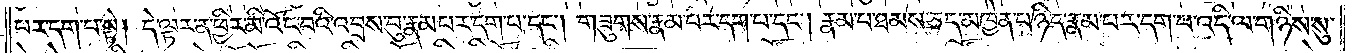པར་དག་པ་སྟེ། དེ་ལྟར་ན་ཕྱིར་མི་འོང་བའི་འབྲས་བུ་རྣམ་པར་དག་པ་དང༌། གཟུགས་རྣམ་པར་དག་པ་དང༌། རྣམ་པ་ཐམས་ཅད་མཁྱེན་པ་ཉིད་རྣམ་པར་དག་པ་འདི་ལ་གཉིས་སུ་
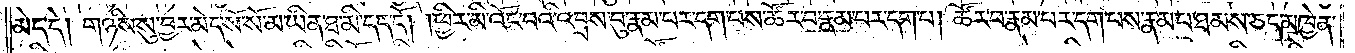མེད་དེ། གཉིས་སུ་བྱར་མེད་སོ་སོ་མ་ཡིན་ཐ་མི་དད་དོ། །ཕྱིར་མི་འོང་བའི་འབྲས་བུ་རྣམ་པར་དག་པས་ཚོར་བ་རྣམ་པར་དག་པ། ཚོར་བ་རྣམ་པར་དག་པས་རྣམ་པ་ཐམས་ཅད་མཁྱེན་
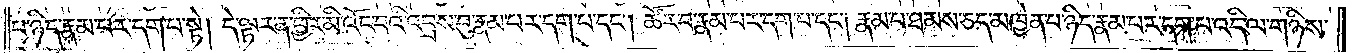པ་ཉིད་རྣམ་པར་དག་པ་སྟེ། དེ་ལྟར་ན་ཕྱིར་མི་འོང་བའི་འབྲས་བུ་རྣམ་པར་དག་པ་དང༌། ཚོར་བ་རྣམ་པར་དག་པ་དང༌། རྣམ་པ་ཐམས་ཅད་མཁྱེན་པ་ཉིད་རྣམ་པར་དག་པ་འདི་ལ་གཉིས་
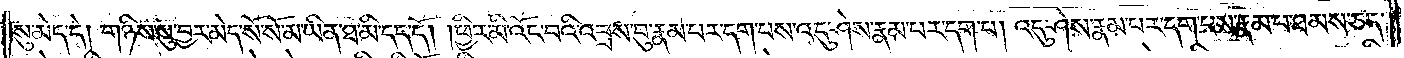སུ་མེད་དེ། གཉིས་སུ་བྱར་མེད་སོ་སོ་མ་ཡིན་ཐ་མི་དད་དོ། །ཕྱིར་མི་འོང་བའི་འབྲས་བུ་རྣམ་པར་དག་པས་འདུ་ཤེས་རྣམ་པར་དག་པ། འདུ་ཤེས་རྣམ་པར་དག་པས་རྣམ་པ་ཐམས་ཅད་
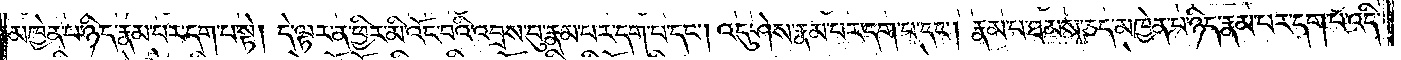མཁྱེན་པ་ཉིད་རྣམ་པར་དག་པ་སྟེ། དེ་ལྟར་ན་ཕྱིར་མི་འོང་བའི་འབྲས་བུ་རྣམ་པར་དག་པ་དང༌། འདུ་ཤེས་རྣམ་པར་དག་པ་དང༌། རྣམ་པ་ཐམས་ཅད་མཁྱེན་པ་ཉིད་རྣམ་པར་དག་པ་འདི་
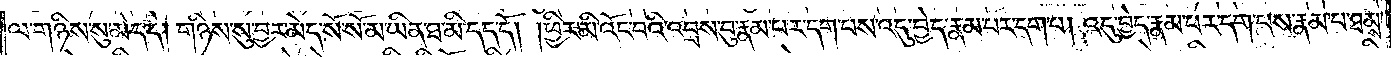ལ་གཉིས་སུ་མེད་དེ། གཉིས་སུ་བྱར་མེད་སོ་སོ་མ་ཡིན་ཐ་མི་དད་དོ། །ཕྱིར་མི་འོང་བའི་འབྲས་བུ་རྣམ་པར་དག་པས་འདུ་བྱེད་རྣམ་པར་དག་པ། འདུ་བྱེད་རྣམ་པར་དག་པས་རྣམ་པ་ཐམས་
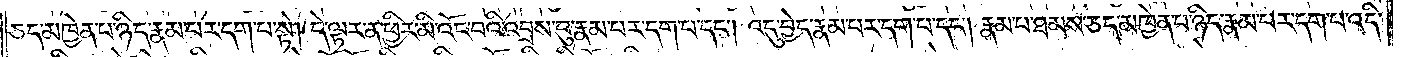ཅད་མཁྱེན་པ་ཉིད་རྣམ་པར་དག་པ་སྟེ། དེ་ལྟར་ན་ཕྱིར་མི་འོང་བའི་འབྲས་བུ་རྣམ་པར་དག་པ་དང༌། འདུ་བྱེད་རྣམ་པར་དག་པ་དང༌། རྣམ་པ་ཐམས་ཅད་མཁྱེན་པ་ཉིད་རྣམ་པར་དག་པ་འདི་
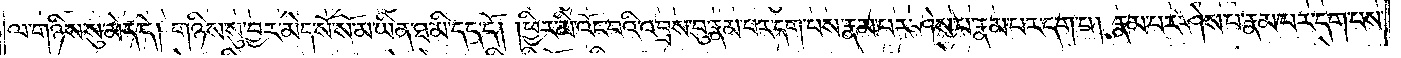ལ་གཉིས་སུ་མེད་དེ། གཉིས་སུ་བྱར་མེད་སོ་སོ་མ་ཡིན་ཐ་མི་དད་དོ། །ཕྱིར་མི་འོང་བའི་འབྲས་བུ་རྣམ་པར་དག་པས་རྣམ་པར་ཤེས་པ་རྣམ་པར་དག་པ། རྣམ་པར་ཤེས་པ་རྣམ་པར་དག་པས་
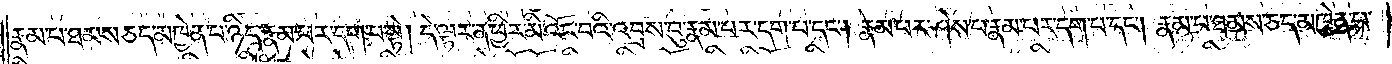རྣམ་པ་ཐམས་ཅད་མཁྱེན་པ་ཉིད་རྣམ་པར་དག་པ་སྟེ། དེ་ལྟར་ན་ཕྱིར་མི་འོང་བའི་འབྲས་བུ་རྣམ་པར་དག་པ་དང༌། རྣམ་པར་ཤེས་པ་རྣམ་པར་དག་པ་དང༌། རྣམ་པ་ཐམས་ཅད་མཁྱེན་པ་
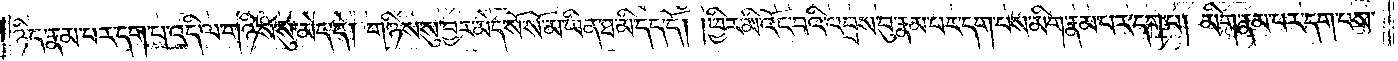ཉིད་རྣམ་པར་དག་པ་འདི་ལ་གཉིས་སུ་མེད་དེ། གཉིས་སུ་བྱར་མེད་སོ་སོ་མ་ཡིན་ཐ་མི་དད་དོ། །ཕྱིར་མི་འོང་བའི་འབྲས་བུ་རྣམ་པར་དག་པས་མིག་རྣམ་པར་དག་པ། མིག་རྣམ་པར་དག་པས་
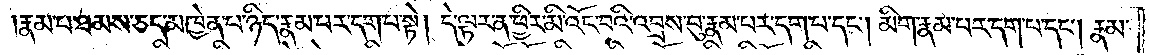རྣམ་པ་ཐམས་ཅད་མཁྱེན་པ་ཉིད་རྣམ་པར་དག་པ་སྟེ། དེ་ལྟར་ན་ཕྱིར་མི་འོང་བའི་འབྲས་བུ་རྣམ་པར་དག་པ་དང༌། མིག་རྣམ་པར་དག་པ་དང༌། རྣམ་
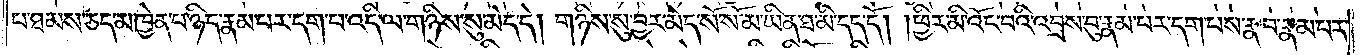པ་ཐམས་ཅད་མཁྱེན་པ་ཉིད་རྣམ་པར་དག་པ་འདི་ལ་གཉིས་སུ་མེད་དེ། གཉིས་སུ་བྱར་མེད་སོ་སོ་མ་ཡིན་ཐ་མི་དད་དོ། །ཕྱིར་མི་འོང་བའི་འབྲས་བུ་རྣམ་པར་དག་པས་རྣ་བ་རྣམ་པར་
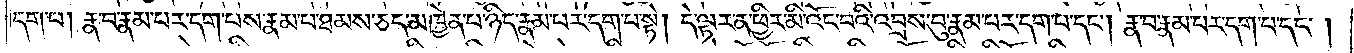དག་པ། རྣ་བ་རྣམ་པར་དག་པས་རྣམ་པ་ཐམས་ཅད་མཁྱེན་པ་ཉིད་རྣམ་པར་དག་པ་སྟེ། དེ་ལྟར་ན་ཕྱིར་མ་འོང་བའི་འབྲས་བུ་རྣམ་པར་དག་པ་དང༌། རྣ་བ་རྣམ་པར་དག་པ་དང༌།
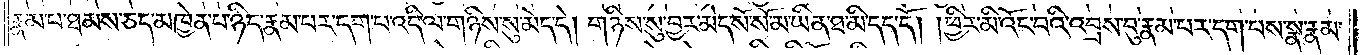རྣམ་པ་ཐམས་ཅད་མཁྱེན་པ་ཉིད་རྣམ་པར་དག་པ་འདི་ལ་གཉིས་སུ་མེད་དེ། གཉིས་སུ་བྱར་མེད་སོ་སོ་མ་ཡིན་ཐ་མི་དད་དོ། །ཕྱིར་མི་འོང་བའི་འབྲས་བུ་རྣམ་པར་དག་པས་སྣ་རྣམ་
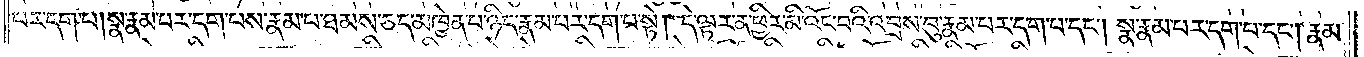པར་དག་པ། སྣ་རྣམ་པར་དག་པས་རྣམ་པ་ཐམས་ཅད་མཁྱེན་པ་ཉིད་རྣམ་པར་དག་པ་སྟེ། དེ་ལྟར་ན་ཕྱིར་མི་འོང་བའི་འབྲས་བུ་རྣམ་པར་དག་པ་དང༌། སྣ་རྣམ་པར་དག་པ་དང༌། རྣམ་
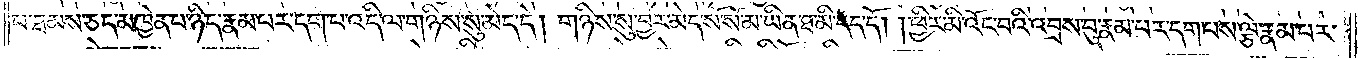པ་ཐམས་ཅད་མཁྱེན་པ་ཉིད་རྣམ་པར་དག་པ་འདི་ལ་གཉིས་སུ་མེད་དེ། གཉིས་སུ་བྱར་མེད་སོ་སོ་མ་ཡིན་ཐ་མི་དད་དོ། །ཕྱིར་མི་འོང་བའི་འབྲས་བུ་རྣམ་པར་དག་པས་ལྕེ་རྣམ་པར་
